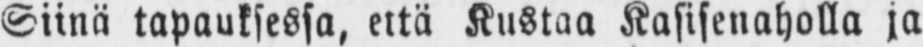Siinä tapauksessa, että Kustaa Kasisenaholla ja
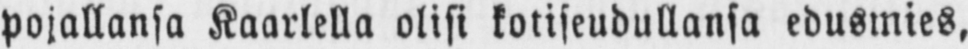pojallansa Kaarlella olisi kotiseudullansa edusmies,
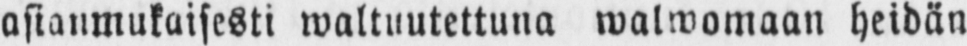asianmukaisesti waltuutettuna walwomaan heidän
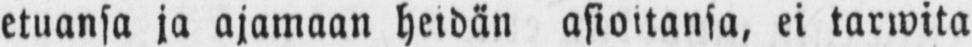etuansa ja ajamaan heidän asioitansa, ei tarwita
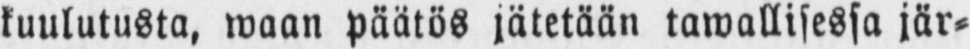kuulutusta, waan päätös jätetään tawallisessa jär-
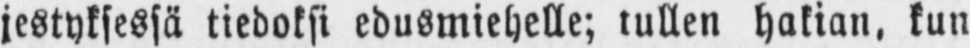jestyksessä tiedoksi eduömiehelle; tullen hakian, kun
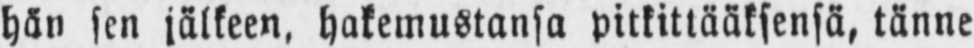hän sen jälkeen, hakemustansa pitkittääksensä, tänne
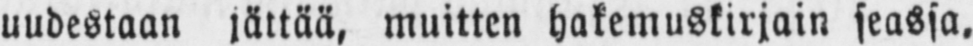uudestaan jättää, muitten hakemuskirjain seassa,
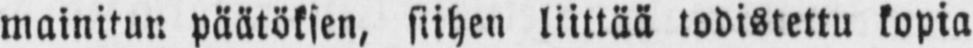mainitun päätöksen, siihen liittää todistettu kopia
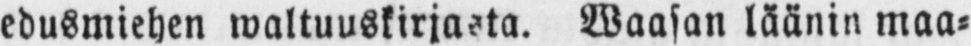edusmiehen waltuuskirjasta. Waasan läänin maa-
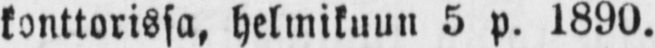konttorissa, helmikuun 5 p. 1890.
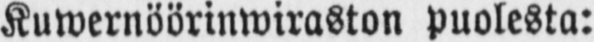Kuwernöörinwiraston puolesta:
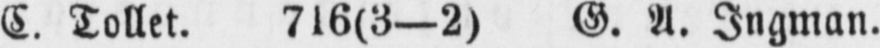E. Tollet. 7l6(3—2) . A. Ingman.
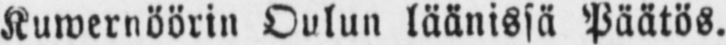Kuwernöörin Oulun läänissä Päätös.
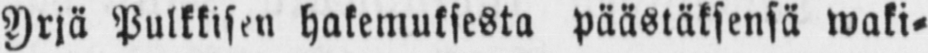Yrjä Pulkkisen hakemuksesta päästäksensä waki-
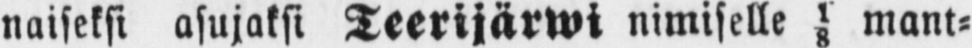naiseksi asujaksi Teerijärwi nimiselle ⅛ mant-
